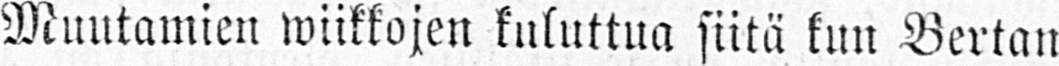Muutamien wiikkojen kuluttua siitä kun Bertan
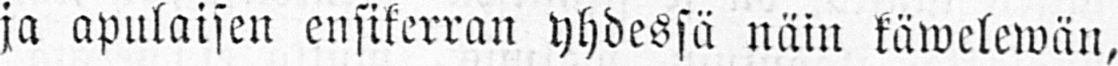ja apulaisen ensikerran yhdessä näin käwelewän,
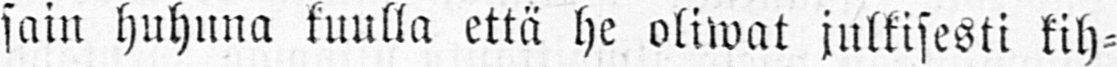sain huhuna kuulla että he oliwat julkisesti kih-
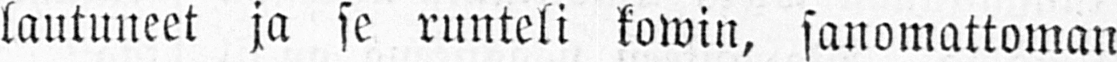lautuneet ja se runteli kowin, sanomattoman
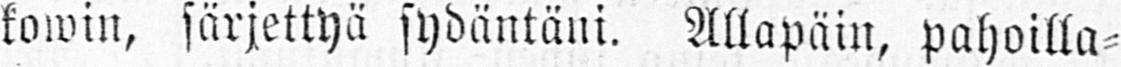kowin, särjettyä sydäntäni. Allapäin, pahoilla-
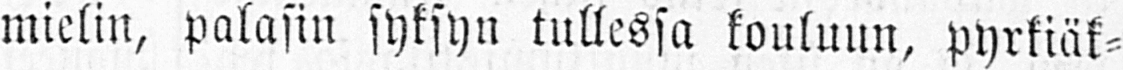mielin, palasin syksyn tullessa kouluun, pyrkiäk-
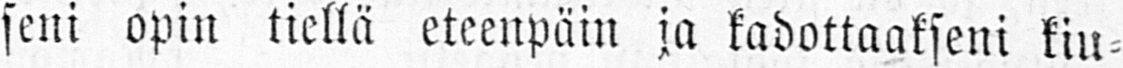seni opin tiellä eteenpäin ja kadottaakseni kiu-
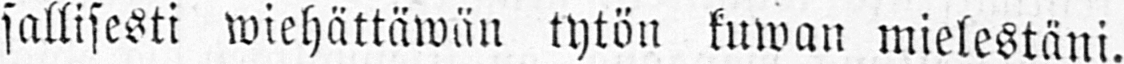sallisesti wiehättäwän tytön kuwan mielestäni.
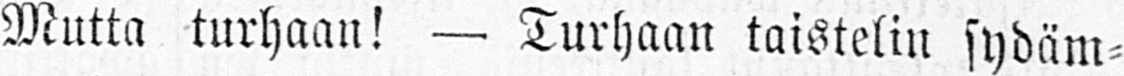Mutta turhaan! — Turhaan taistelin sydäm-
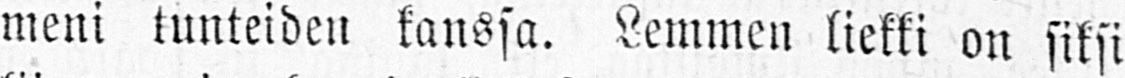meni tunteiden kanssa. Lemmen liekki on siksi
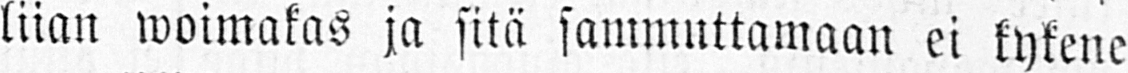liian woimakas ja sitä sammuttamaan ei kykene
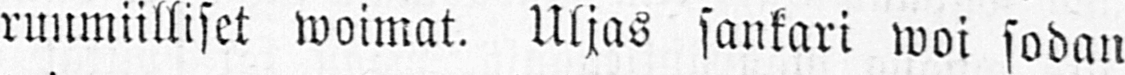ruumiilliset woimat. Uljas sankari woi sodan
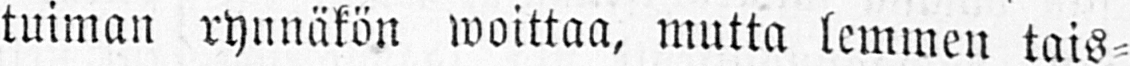tuiman ryunäkön woittaa, mutta lemmen tais-
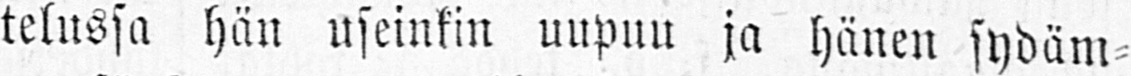telussa hän useinkin uupuu ja hänen sydäm-
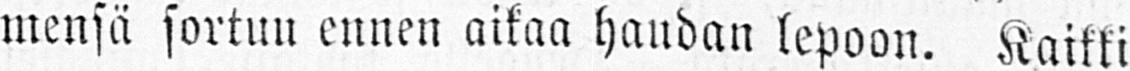mensä sortuu ennen aikaa haudan lepoon. Kaikki
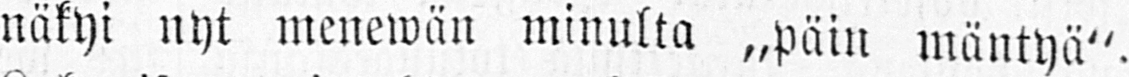näkyi nyt menewän minulta „päin mäntyä".
